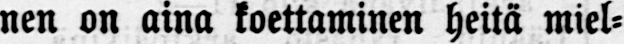nen on aina koettaminen heitä miel-
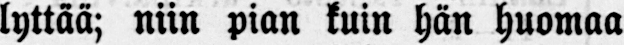lyttää; niin pian kuin hän huomaa
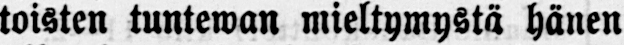toisten tuntewan mieltymystä hänen
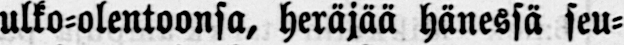ulko-olentoonsa, heräjää hänessä seu-
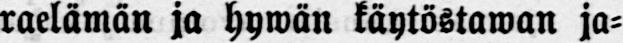raelämän ja hywän käytöstawan ja-
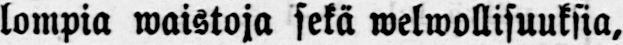lompia waistoja sekä welwollisuuksia,
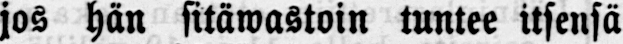jos hän sitäwastoin tuntee itsensä
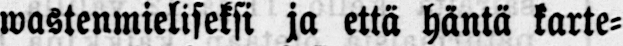wastenmieliseksi ja että häntä karte-
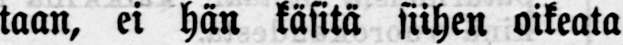taan, ei hän käsitä siihen oikeata
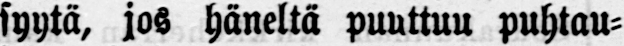syytä, jos häneltä puuttuu puhtau-
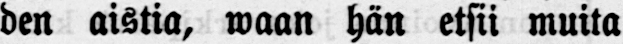den aistia, waan hän etsii muita
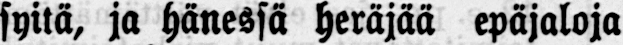syitä, ja hänessä heräjää epäjaloja
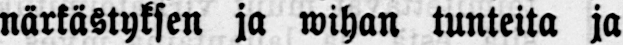närkästyksen ja wihan tunteita ja
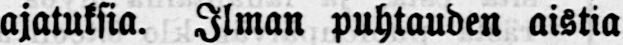ajatuksia. Ilman puhtauden aistia
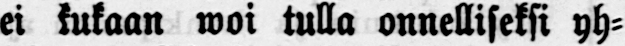ei kukaan woi tulla onnelliseksi yh-
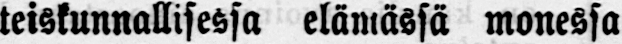teiskunnallisessa elämässä monessa
